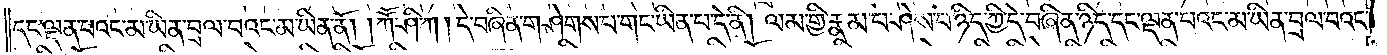དང་ལྡན་པའང་མ་ཡིན་བྲལ་བའང་མ་ཡིན་ནོ། །ཀཽ་ཤི་ཀ། དེ་བཞིན་གཤེགས་པ་གང་ཡིན་པ་དེ་ནི། ལམ་གྱི་རྣམ་པ་ཤེས་པ་ཉིད་ཀྱི་དེ་བཞིན་ཉིད་དང་ལྡན་བའང་མ་ཡིན་བྲལ་བའང་
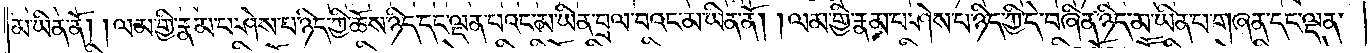མ་ཡིན་ནོ། །ལམ་གྱི་རྣམ་པ་ཤེས་པ་ཉིད་ཀྱི་ཆོས་ཉིད་དང་ལྡན་པའང་མ་ཡིན་བྲལ་བའང་མ་ཡིན་ནོ། །ལམ་གྱི་རྣམ་པ་ཤེས་པ་ཉིད་ཀྱི་དེ་བཞིན་ཉིད་མ་ཡིན་པ་གཞན་དང་ལྡན་
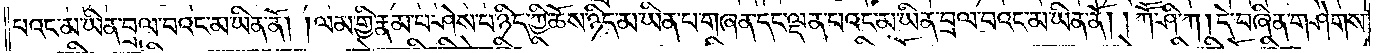པའང་མ་ཡིན་བྲལ་བའང་མ་ཡིན་ནོ། །ལམ་གྱི་རྣམ་པ་ཤེས་པ་ཉིད་ཀྱི་ཆོས་ཉིད་མ་ཡིན་པ་གཞན་དང་ལྡན་པའང་མ་ཡིན་བྲལ་བའང་མ་ཡིན་ནོ། །ཀཽ་ཤི་ཀ །དེ་བཞིན་གཤེགས་
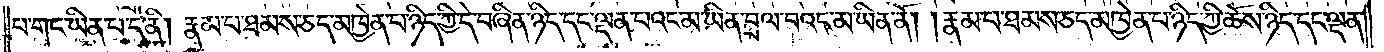པ་གང་ཡིན་པ་དེ་ནི། རྣམ་པ་ཐམས་ཅད་མཁྱེན་པ་ཉིད་ཀྱི་དེ་བཞིན་ཉིད་དང་ལྡན་པའང་མ་ཡིན་བྲལ་བའང་མ་ཡིན་ནོ། །རྣམ་པ་ཐམས་ཅད་མཁྱེན་པ་ཉིད་ཀྱི་ཆོས་ཉིད་དང་ལྡན་
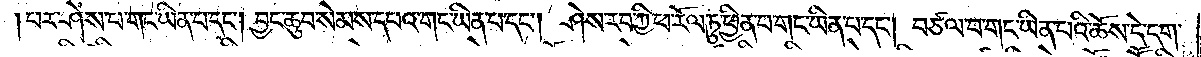པར་ཤེས་པ་གང་ཡིན་པ་དང༌། བྱང་ཆུབ་སེམས་དཔའ་གང་ཡིན་པ་དང༌། ཤེས་རབ་ཀྱི་ཕ་རོལ་ཏུ་ཕྱིན་པ་གང་ཡིན་བ་དང༌། བཙལ་བ་གང་ཡིན་པའི་ཆོས་དེ་དག་
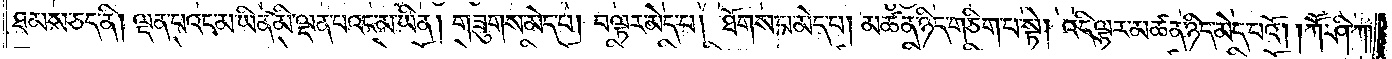ཐམས་ཅད་ནི། ལྡན་པའང་མ་ཡིན་མི་ལྡན་པའང་མ་ཡིན། གཟུགས་མེད་པ། བལྟར་མེད་པ། ཐོགས་པ་མེད་པ། མཚན་ཉིད་གཅིག་པ་སྟེ། འདི་ལྟར་མཚན་ཉིད་མེད་པའོ། །ཀཽ་ཤི་ཀ།
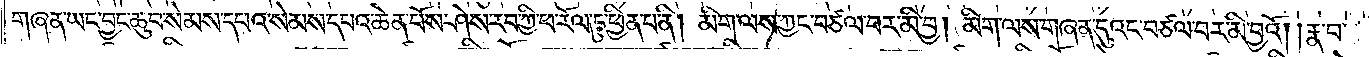གཞན་ཡང་བྱང་ཆུབ་སེམས་དཔའ་སེམས་དཔའ་ཆེན་པོས་ཤེས་རབ་ཀྱི་ཕ་རོལ་ཏུ་ཕྱིན་པ་ནི། མིག་ལས་ཀྱང་བཙལ་བར་མི་བྱ། མིག་ལས་གཞན་དུའང་བཙལ་བར་མི་བྱའོ། །རྣ་བ་
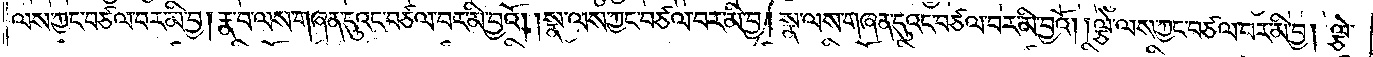ལས་ཀྱང་བཙལ་བར་མི་བྱ། རྣ་བ་ལས་གཞན་དུའང་བཙལ་བར་མི་བྱའོ། །སྣ་ལས་ཀྱང་བཅོལ་བར་མི་བྱ། སྣ་ལས་གཞན་དུའང་བཙལ་བར་མི་བྱའོ། །ལྕེ་ལས་ཀྱང་བཙལ་བར་མི་བྱ། ལྕེ་
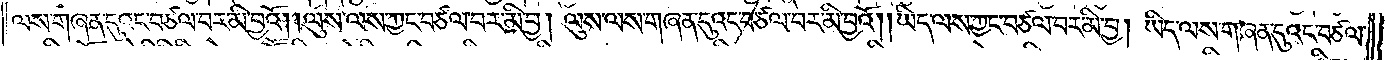ལས་གཞན་དུའང་བཙལ་བར་མི་བྱའོ། །ལུས་ལས་ཀྱང་བཙལ་བར་མི་བྱ། ལུས་ལས་གཞན་དུའང་བཙལ་བར་མི་བྱའོ། །ཡིད་ལས་ཀྱང་བཙལ་བར་མི་བྱ། ཡིད་ལས་གཞན་དུའང་བཙལ་
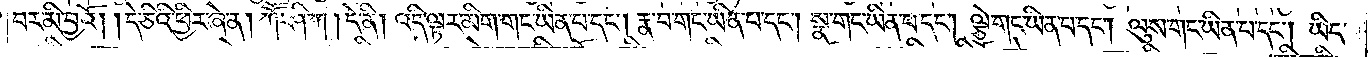བར་མི་བྱའོ། །དེ་ཅིའི་ཕྱིར་ཞེ་ན། ཀཽ་ཤི་ཀ །དེ་ནི། འདི་ལྟར་མིག་གང་ཡིན་པ་དང༌། རྣ་བ་གང་ཡིན་པ་དང༌། སྣ་གང་ཡིན་པ་དང༌། ལྕེ་གང་ཡིན་པ་དང༌། ལུས་གང་ཡིན་པ་དང༌། ཡིད་
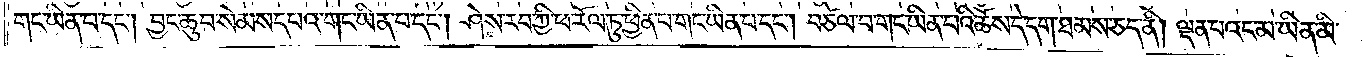གང་ཡིན་པ་དང༌། བྱང་ཆུབ་སེམས་དཔའ་གང་ཡིན་པ་དང༌། ཤེས་རབ་ཀྱི་ཕ་རོལ་ཏུ་ཕྱིན་པ་གང་ཡིན་པ་དང༌། བཙལ་བ་གང་ཡིན་པའི་ཆོས་དེ་དག་ཐམས་ཅད་ནི། ལྡན་པའང་མ་ཡིན་མི་
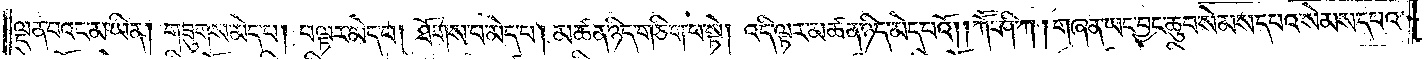ལྡན་པའང་མ་ཡིན། གཟུགས་མེད་པ། བལྟར་མེད་པ། ཐོགས་པ་མེད་པ། མཚན་ཉིད་གཅིག་པ་སྟེ། འདི་ལྟར་མཚན་ཉིད་མེད་པའོ། །ཀཽ་ཤི་ཀ །གཞན་ཡང་བྱང་ཆུབ་སེམས་དཔའ་སེམས་དཔའ་
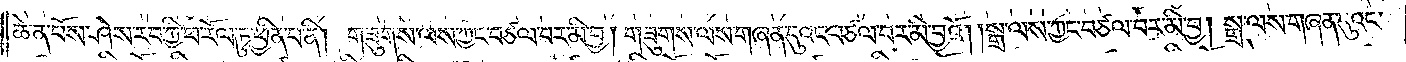ཆེན་པོས་ཤེས་རབ་ཀྱི་ཕ་རོལ་ཏུ་ཕྱིན་པ་ནི། གཟུགས་ལས་ཀྱང་བཙལ་བར་མི་བྱ། གཟུགས་ལས་གཞན་དུའང་བཙལ་བར་མི་བྱའོ། །སྒྲ་ལས་ཀྱང་བཙལ་བར་མི་བྱ། སྒྲ་ལས་གཞན་དུའང་
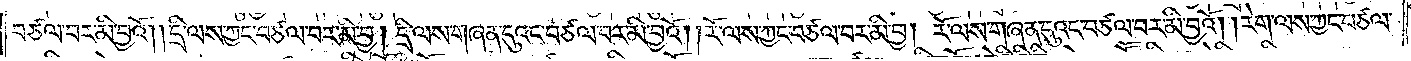བཙལ་བར་མི་བྱའོ། །དྲི་ལས་ཀྱང་བཙལ་བར་མི་བྱ། དྲི་ལས་གཞན་དུའང་བཙལ་བར་མི་བྱའོ། །རོ་ལས་ཀྱང་བཙལ་བར་མི་བྱ། རོ་ལས་གཞན་དུའང་བཙལ་བར་མི་བྱའོ། །རེག་ལས་ཀྱང་བཙལ་
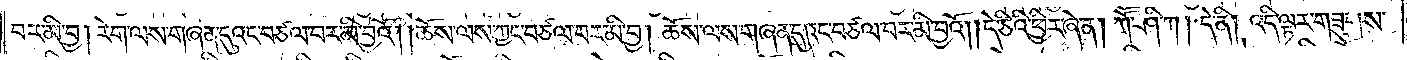བར་མི་བྱ། རེག་ལས་གཞན་དུའང་བཙལ་བར་མི་བྱའོ། །ཆོས་ལས་ཀྱང་བཙལ་བར་མི་བྱ། ཆོས་ལས་གཞན་དུའང་བཙལ་བར་མི་བྱའོ། །དེ་ཅིའི་ཕྱིར་ཞེ་ན། ཀཽ་ཤི་ཀ། དེ་ནི། འདི་ལྟར་གཟུགས་
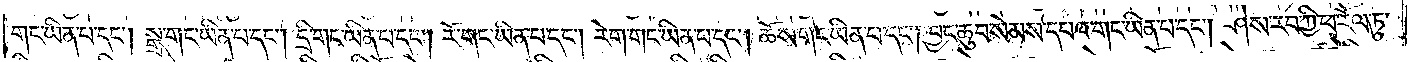གང་ཡིན་པ་དང༌། སྒྲ་གང་ཡིན་པ་དང༌། དྲི་གང་ཡིན་པ་དང༌། རོ་གང་ཡིན་པ་དང༌། རེག་གང་ཡིན་པ་དང༌། ཆོས་གང་ཡིན་པ་དང༌། བྱང་ཆུབ་སེམས་དཔའ་གང་ཡིན་པ་དང༌། ཤེས་རབ་ཀྱི་ཕ་རོལ་ཏུ་
